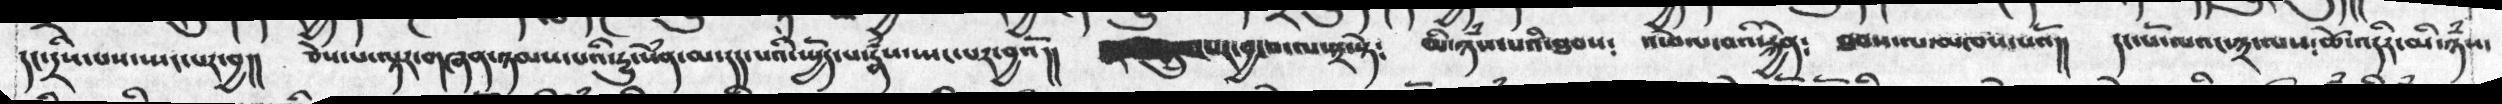དང་དྲིས་པས་སྤངཔ་ར་བྱ།།  ཅེས་པ་ལྟར་གཞན་ཉམས་པའི་དྱུ་སེཾན་མ་དད་པའི་སྤྱོད་པ་རྣཾས་སྤང་པར་བྱའོ།།  པར་བྱ་བ་ལ་༣་སྟེ༴  མི་ཉཾས་པའི་ཐབས༴  འཕེལ་བའི་རྐྱེན༴  ཐབས་ལ་མཁས་པའོ།།  དང་པོ་ལའང་༣་ལས༴ཚེ་འདིར་མི་ཉཾས་
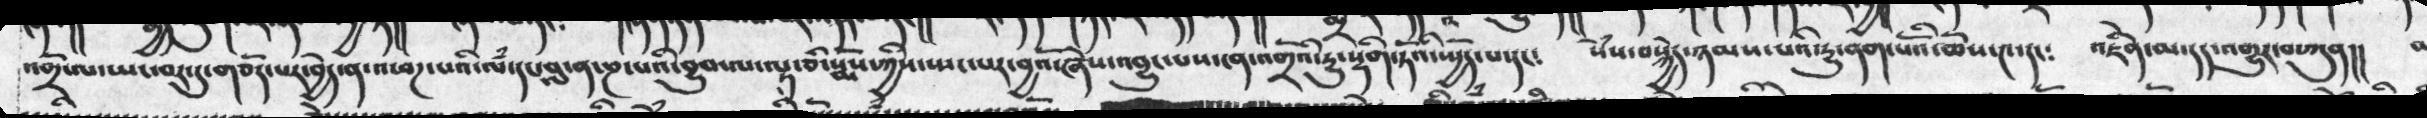འགྲོ་ལ་ཡང་བར་དུ་གཅོད་པར་བྱེད་ན་འཕཌ་པའི་ལཾ་དང་བླ་ན་ཎ་པའི་བྱུབ་ལ་ལྟ་ཅི་སྨོས་ཀྱིས་སྤང་པར་བྱའོ་ཞེས་འབྱུང་པས་ངན་འགྲོའི་དྱུ་སྡིག་ཏོའི་སྤྱོད་པ་དང༴  སེཾས་བསྐྱེད་ཉམས་པའི་དྱུ་ནག་པོའི་ཆོས་༤་དང༴   འཇིན་མ་དད་འགྱུར་བ་ཀུན།།
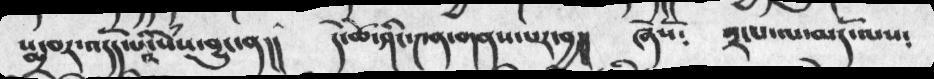སྨྲ་བར་འདོད་པའི་སེཾས་བྱུང་ན།།  དེ་ཚེ་ཤིང་༤ན་གནས་པར་བྱ།།  ཞེསོ༴  ༢་པ་ལ་མདོ་ལས༴
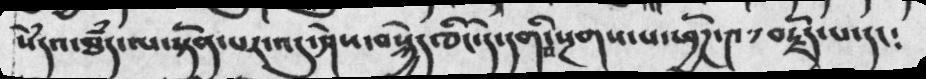སེཾདའ་ཐཾད་ལ་སྟོན་པར་འདུ་ཤེས་བསྐྱེད་ཅིང་དེ་དགི་བསྔགས་པ་ཕྱོཌ་༤་བརྗོད་པ་དང༴
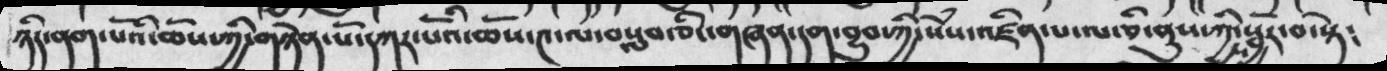ཉིད་ནག་པོའི་ཆོས་ཀྱི་གཉེན་པོ་དཀར་པོའི་ཆོས་༤་ལ་བསླབ་ཅིང་གཞན་དག་བྱུབ་ཀྱི་སེཾས་འཛིན་པ་ལ་ཅི་ནུས་ཀྱིས་སྦྱོར་བ་སྟེ༴
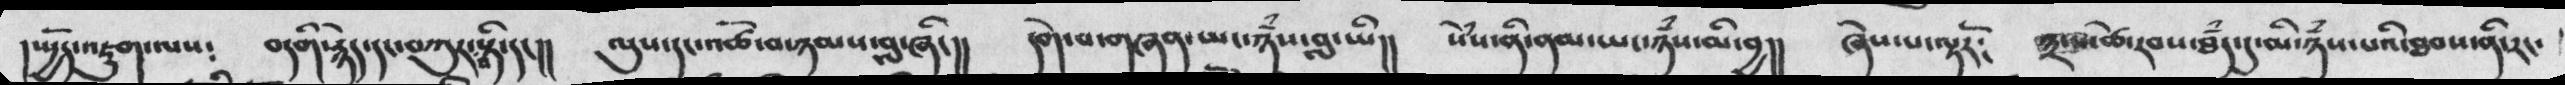།སྤྱོད་འཇུག་ལས༴  བདགི་རྙེད་དང་བཀུར་སྟི་དང།།  ལུས་དང་འཚོ་བ་ཉམས་བླ་ཞིང།།  དགེ་བ་གཞན་ཡང་ཉཾས་བླ་ཡི།།  སེཾས་ནི་ནམ་ཡང་ཉཾས་མི་བྱ།།  ཞེས་པ་ལྟར༴  ༣་པ་ཚེ་རབས་ཐཾད་དུ་མི་ཉཾས་པའི་ཐབས་ནི་རང་
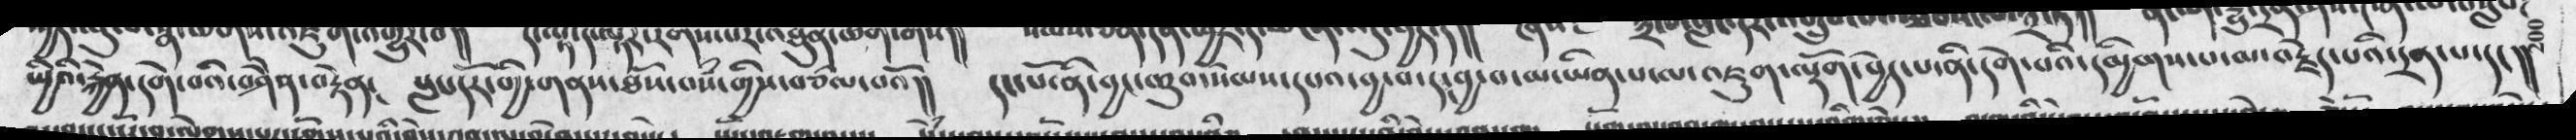སྤྱིའི་རྐྱེན་དགེ་བའི་བཤེེན་བརྟེན༴  སླང་དོར་གྱི་གནས་ཐོས་བསཾ་གྱིས་བཙལ་བའོ།།  དང་པོ་ནི་བྱང་ཆུབ་སེམས་དཔའ་བྱ་བ་དང་བྱ་བ་མ་ཡིན་པ་ལ་འཇུག་ལྡོག་བྱེད་པ་ནི་དགེ་པའི་དམྱིགས་པ་བརྗེད་པའི་དྲན་པ་དང་།།
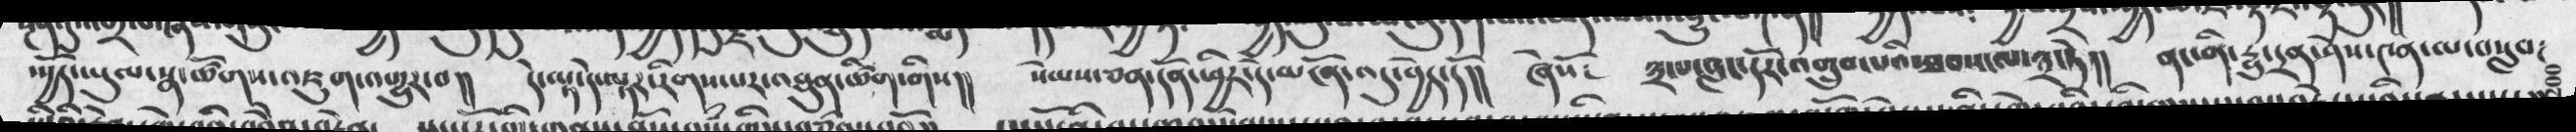སྤྱོད་ཡུལ་སྣ་ཚོགས་འཇུག་འགྱུར་བ།།  དེ་ལྟ་དེ་ལྟར་རིགས་པར་འཐུན་ཚིག་གིས།།  སེམས་ཅན་དོན་ཕྱིར་དེ་མངོན་འདུ་བྱེད་དོ།།  ཞེསོ༑  ༣་པ་བླང་དོར་འགྲུབ་པའི་ཐབས་ལ་༣་ཏེ།།  ནང་ནི་རྱུ་དྲན་ཤེས་༤ན་ལ་བསླབ༴
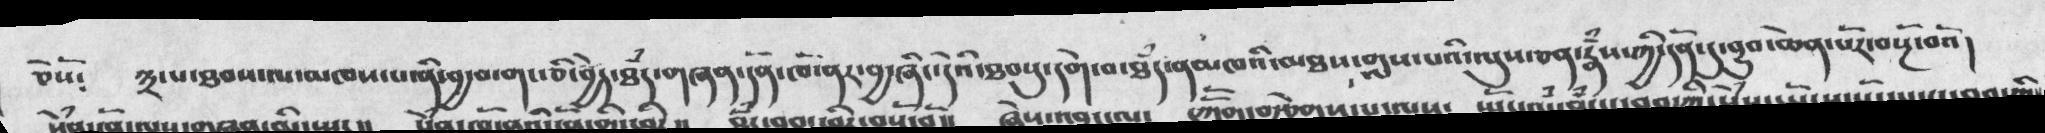ཅེསོ༴  ༣་པ་ཐབས་ལ་མཁས་པ་ནི་བྱ་བ་གང་ཅི་བྱེད་ཐཾད་གཞན་དོན་ཁོ་ནར་བྱ་ཞིང་དེའི་ཐུབསུ་དགེ་བ་ཐཾད་ནམཁའི་མཐས་གླས་པའི་ལུས་ཅན་རྣཾས་ཀྱི་དོན་དུ་བྱུབ་ཆེན་པོར་བསྔོ་བའོ།
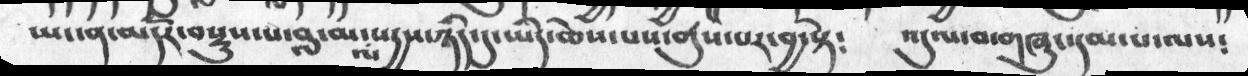ཡང་ན་མདོར་བསྡུས་པ་བླ་མ་ལ་སདྱས་ཉིད་དུ་ཡིད་ཆེས་པས་ནུས་པར་བྱ་སྟེ༴  འདུལ་བ་གཞུང་དམ་པ་ལས༴
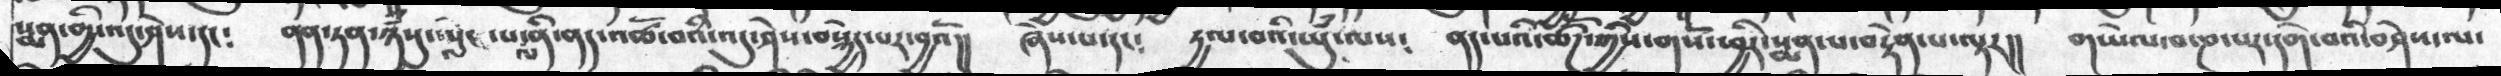སྨན་གྱི་འདུ་ཤེས་དང༴  ནན་ཏན་ཉཾསུ་སླང་པ་ལ་ནི་ནད་འཚོ་བའི་འདུ་ཤེས་བསྐྱེད་པར་བྱའོ།།  ཞེས་པ་དང༴  དྱལ་བའི་ཡུཾ་ལས༴  ནད་པའི་ཚོཌ་ཀྱིས་གསོ་ཕྱིར་སྨན་པ་བརྟེན་པ་ལྟར།།  གཡེལ་བ་ཎ་པར་དགེ་བའི་བཤེས་ལ་
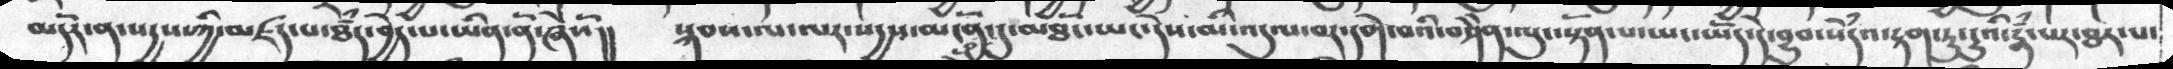མདོར་ན་སདྱས་ཀྱི་མཛད་པ་ཐེཾད་བྱེད་པ་ཡིན་ནོ་ཞེསོ།།  སྐབས་ལ་ལར་སདྱས་མངོན་དུ་མཐོང་ཡང་དེས་མི་འདུལ་བར་དགེ་བའི་བཤེན་ལུང་སྟོན་པ་ཡང་ཡོད་དེ་བྱུབ་སེཾདའ་རྟག་ཏུ་དྱུའི་རྣཾ་པར་ཐར་པ་
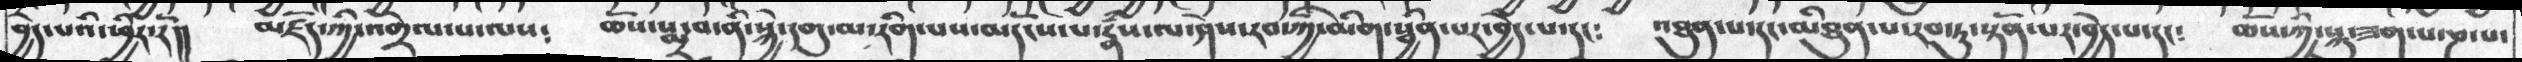བྱེད་པའི་ཕྱིར་རོ།།  མཛོད་ཀྱི་འགྲེལ་པ་ལས༴  ཆོས་སྨྲ་བ་ནི་སྐྱེ་དགུ་མ་རིག་པས་མདོངས་པ་རྣཾས་ལ་ཤེས་རབ་ཀྱི་མིག་སྦྱིན་པར་བྱེད་པ་དང༴  འཐུན་པ་དང་མིཐུན་པ་རབ་ཏུ་སྟོན་པར་བྱེད་པ་དང༴  ཆོས་ཀྱི་སྐུ་ཟག་པ་ཎ་པ་
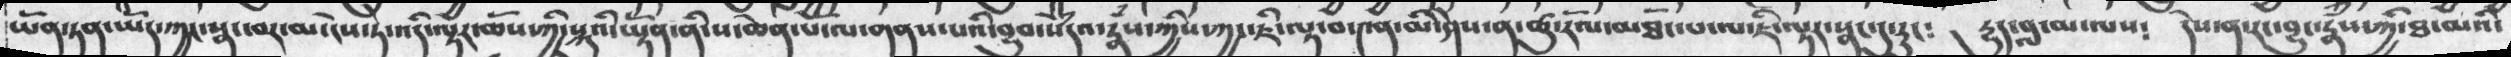ཡོན་ཏན་ཡོད་ཀྱང་སྣ་བར་མ་ངེས་ཏེ་འདི་ལྟར་ཆོས་ཀྱི་སྐུའི་ཡྟོན་ནི་ས་ཆེན་པོ་ལ་གནས་པའི་བྱུབ་སེཾདའ་རྣཾས་ཀྱིས་ཀྱང་ཇི་ལྟ་བ་༤ན་མི་ཤེས་ན་ཚུ་རོལ་མཐོང་པ་ལ་ཇི་ལྟར་སྣང་དུ་རུང༴  དྱུད་བླ་མ་ལས༴  དེས་ན་རང་བྱུང་རྣཾས་ཀྱི་ཐ་མའི་
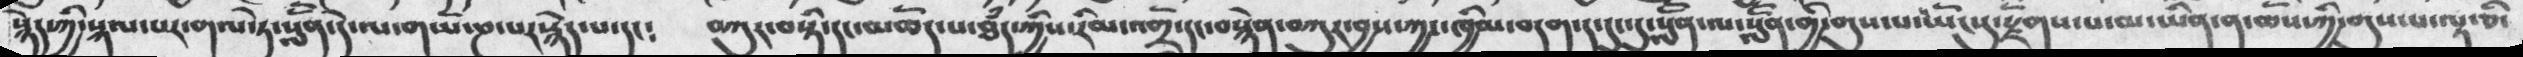སྙེད་ཀྱི་སྐལ་པར་གལ་ཏེ་སློན་དེ་ལ་གཡོ་ཎ་པར་སྙེད་པ་དང༴  བཀུར་བསྟི་དང་མཆོད་པ་ཐཾད་ཀྱིས་རིམ་འགྲོ་དང་བསྙེན་བཀུར་བྱས་ཀྱང་ཁྱིམ་བདག་ད་དུང་དུ་སློན་གྱི་གུས་པ་ཡོངསུ་རྫོགས་པ་མ་ཡིན་ན་ཆོས་ཀྱི་གུས་པ་ལྟ་ཅི་
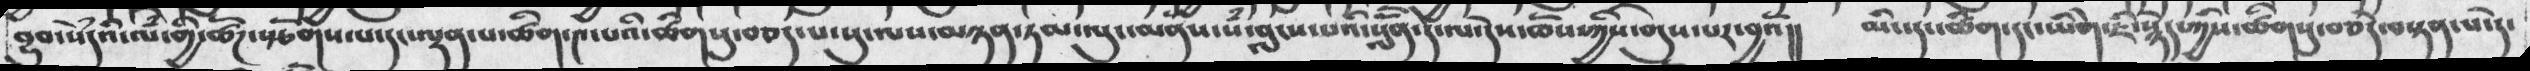བྱུབ་སེཾདའ་ལཾ་གྱི་ཚོཌ་སྩོགས་པ་དང་ལྡན་པ་ཚིག་༤་པའི་ཚིགསུ་བཅད་པ་པུ་ལས་མཉན་ཏམ་ལུང་མནས་པ་བླངས་པའི་སློན་དེ་ལ་དེས་ཆོས་ཀྱིས་གུས་པར་བྱའོ།།  མིང་དང་ཚིག་དཡིགེ་ཇི་སྙེད་ཀྱིས་ཚིགསུ་བཅད་བསྟན་པ་དེ་
